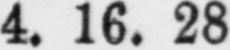4.16. 28
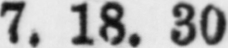7. 18. 30
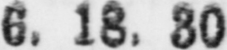6. 18. 80
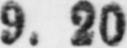9. 20
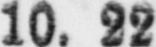10. 22
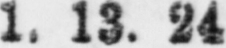1. 13. 24
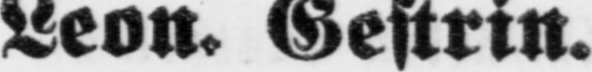Leon. Gestrin.
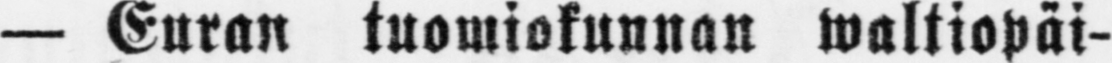— Euran tuomiokunnan waltiopäi-
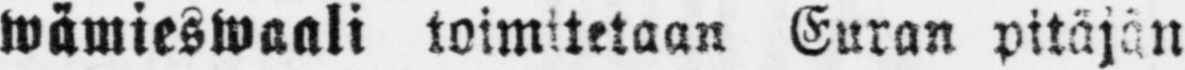wämieswaali toimitetaan Euran pitäjän
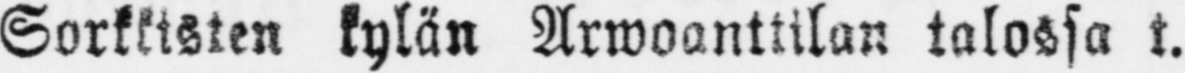Sorkkisten kylän Arwoanttilan talossa t.
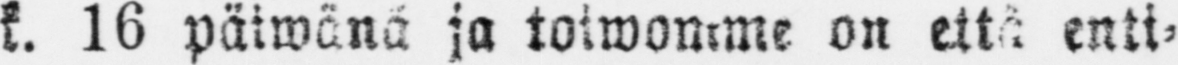k. 16 päiwänä ja toiwomme on että enti-
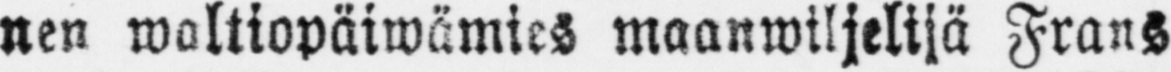nen waltiopäiwämies maanwiljelijä Frans
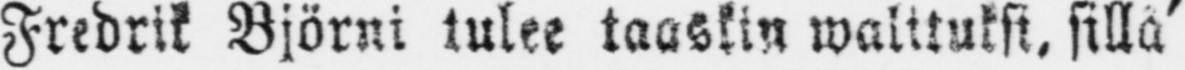Fredrik Björni tulee taaskin walituksi, sillä
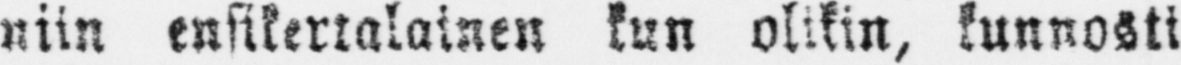niin ensikertalainen kun olikin, kunnosti
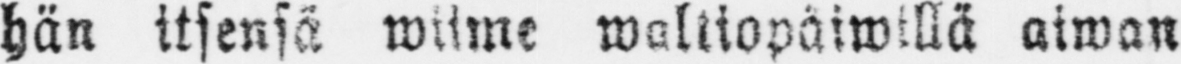hän itsensä wiime waltiopäiwillä aiwan
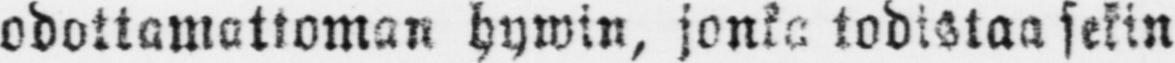odottamattoman hywin, jonka todistaa sekin
